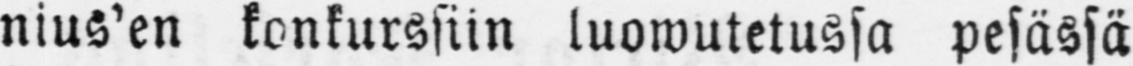nius'en konkurssiin luowutetussa pesässä
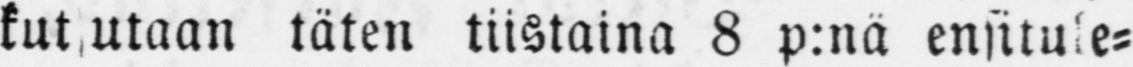kutsutaan täten tiistaina 8 p:na ensitule-
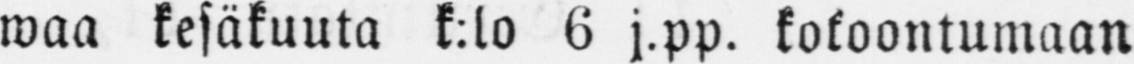waa kesäkuuta k:lo 6 j.pp. kokoontumaan
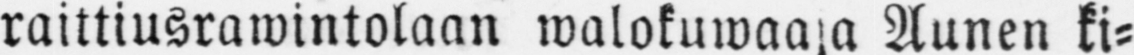raittiusrawintolaan walokuwaaja Aunen ki-
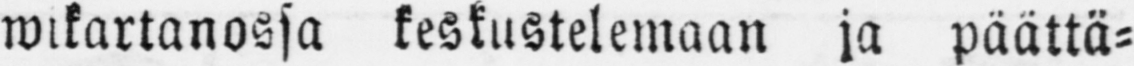wikartanossa keskustelemaan ja päättä-
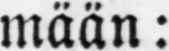mään:
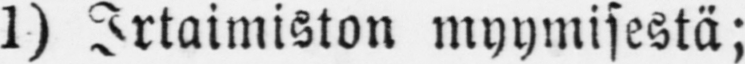1) Irtaimiston myymisestä;
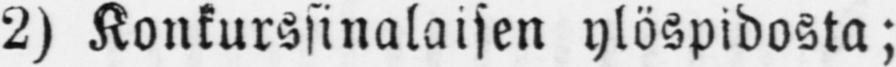2) Konkurssinalaisen ylöspidosta;
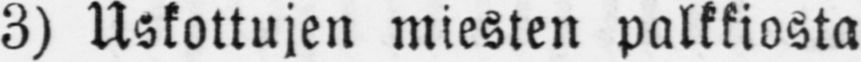3) Uskottujen miesten palkkiosta
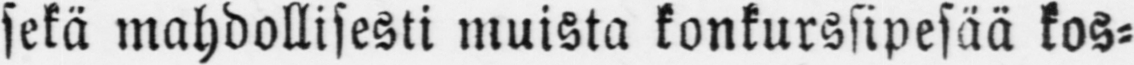sekä mahdollisesti muista konkurssipesää kos-
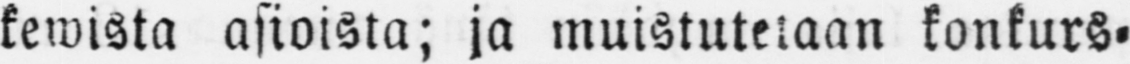kewista asioista; ja muistutetaan konkurs-
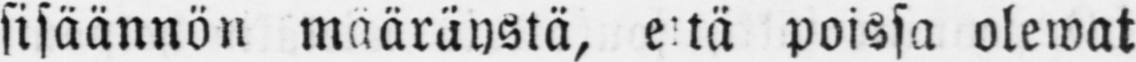sisäännön määräystä, että poissa olewat
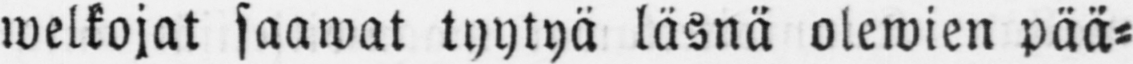welkojat saawat tyytyä läsnä olewien pää-
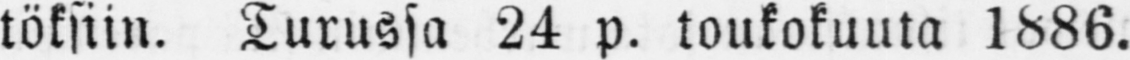töksiin. Turussa 24 p. toukokuuta 1886.
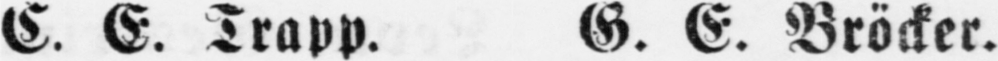E. E. Trapp. G. E. Bröcker.
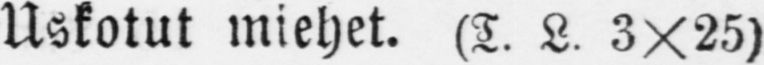Uskotut miehet. (T. L. 3X25)
